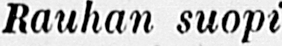Rauhan suopi
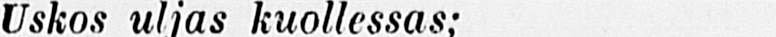Uskos uljas kuollessas;
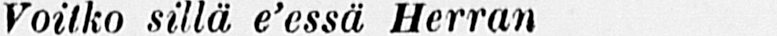Voitko sillä e'essä Herran
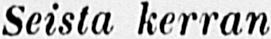Seista kerran
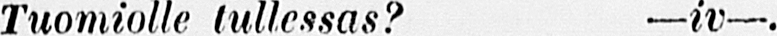Tuomiolle tullessas? —rv —.
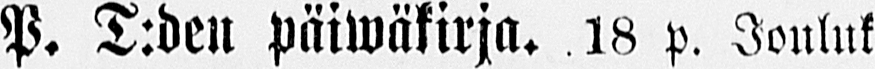P. T:den päiwäkirja. 18 p. Jouluk
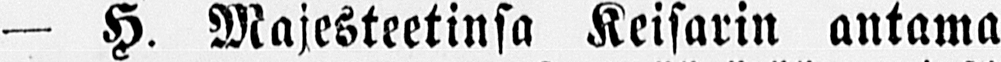— H. Majesteetinsa Keisarin antama
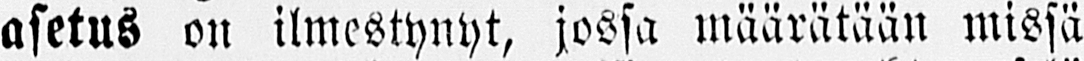asetus on ilmestynyt, jossa määrätään missä
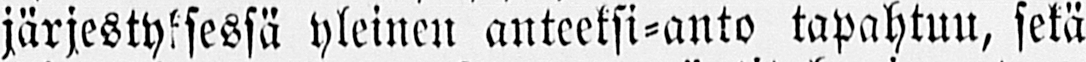järjestyksessä yleinen anteeksi-anto tapahtuu, setä
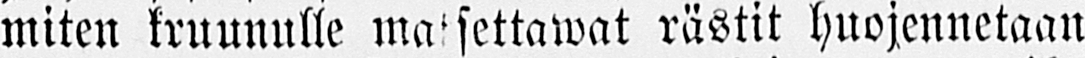miten kruunulle matsettawat rästit huojennetaan
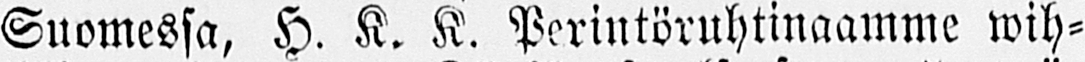Suomessa, H. K. K. Perintöruhtinaamme wih-
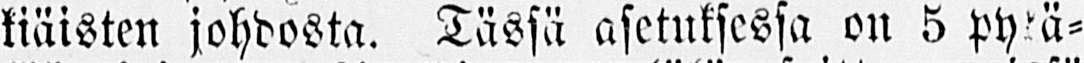tiäisten johdosta. Tässä asetuksessa on 5 pykä-
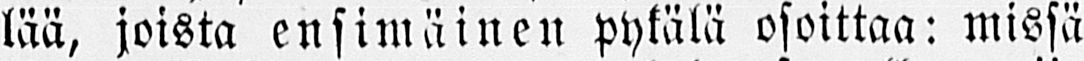lää, joista ensimäinen pykälä osoittaa: missä
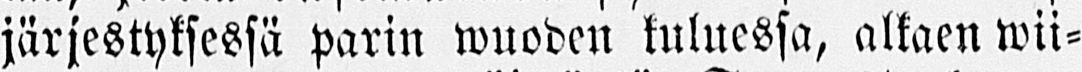järjestyksessä parin wuoden kuluessa, alkaen wii-
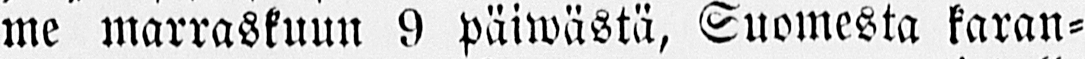me marraskuun 9 päiwästä, Suomesta karan-
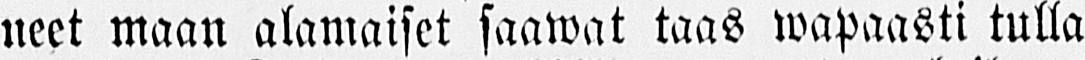neet maan alamaiset saawat taas wapaasti tulla
